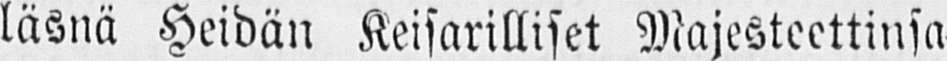läsnä Heidän Keisarilliset Majesteettinsa
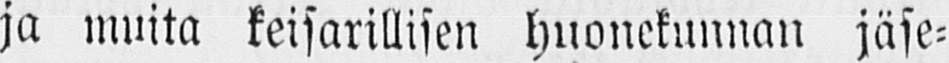ja muita keisarillisen huonekunnan jäse-
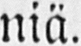niä.
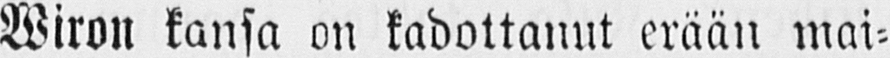Wiron kansa on kadottanut erään mai-
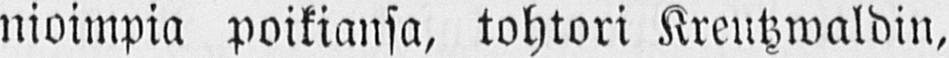nioimpia poikiansa, tohtori Kreutzwaldin,
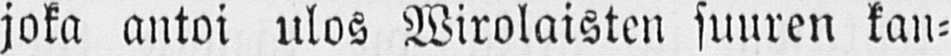joka antoi ulos Wirolaisten suuren kan-
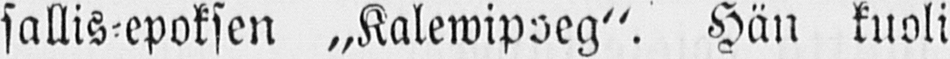sallis-epoksen „Kalewipoeg". Hän kuoli
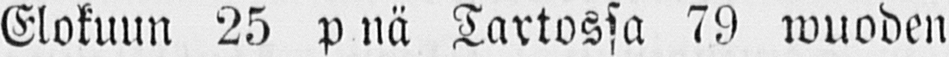Elokuun 25 p nä Tartossa 79 wuoden
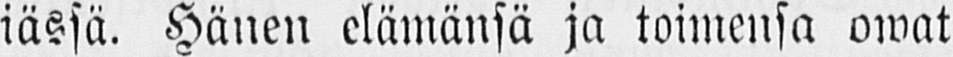iässä. Hänen elämänsä ja toimensa owat
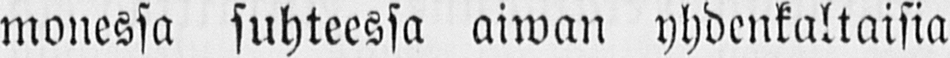monessa suhteessa aiwan yhdenkaltaisia
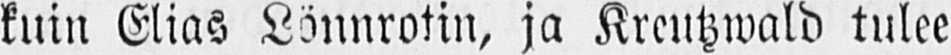kuin Elias Lönnrotin, ja Kreutzwald tulee
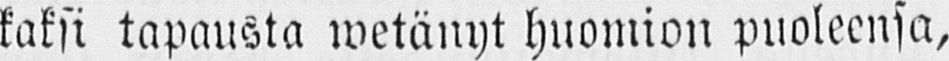kaksi tapausta wetänyt huomion puoleensa,
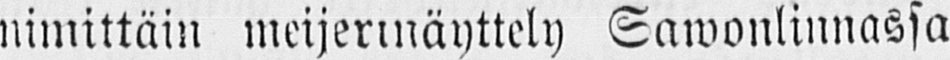nimittäin meijerinäyttely Sawonlinnassa
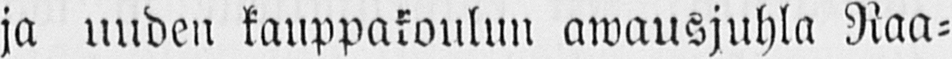ja uuden kauppakoulun awausjuhla Raa-
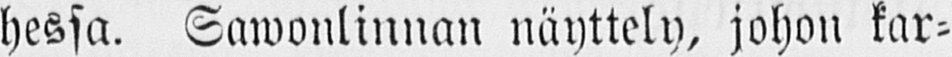hessa. Sawonlinnan näyttely, johon kar-
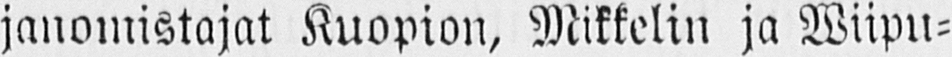janomistajat Kuopion, Mikkelin ja Wiipu-
